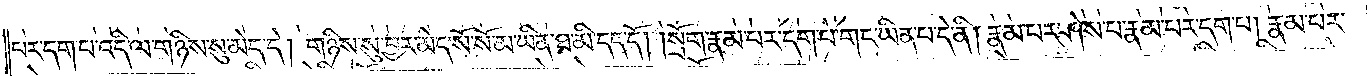པར་དག་པ་འདི་ལ་གཉིས་སུ་མེད་དེ། གཉིས་སུ་བྱར་མེད་སོ་སོ་མ་ཡིན་ཐ་མི་དད་དོ། །སྲོག་རྣམ་པར་དག་པ་གང་ཡིན་པ་དེ་ནི། རྣམ་པར་ཤེས་པ་རྣམ་པར་དག་པ། རྣམ་པར་
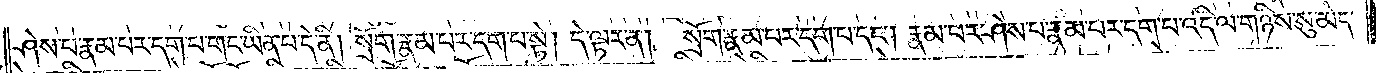ཤེས་པ་རྣམ་པར་དག་པ་གང་ཡིན་པ་དེ་ནི། སྲོག་རྣམ་པར་དག་པ་སྟེ། དེ་ལྟར་ན། སྲོག་རྣམ་པར་དག་པ་དང༌། རྣམ་པར་ཤེས་པ་རྣམ་པར་དག་པ་འདི་ལ་གཉིས་སུ་མེད་
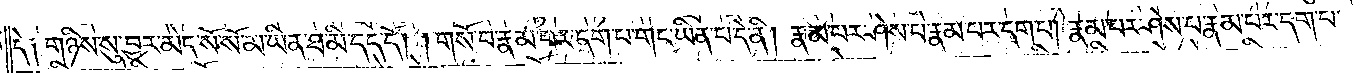དེ༑ གཉིས་སུ་བྱར་མེད་སོ་སོ་མ་ཡིན་ཐ་མི་དད་དོ། །གསོ་བ་རྣམ་པར་དག་པ་གང་ཡིན་པ་དེ་ནི། རྣམ་པར་ཤེས་པ་རྣམ་པར་དག་པ། རྣམ་པར་ཤེས་པ་རྣམ་པར་དག་པ་
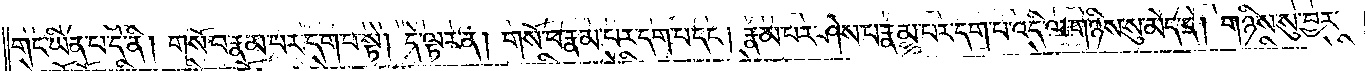གང་ཡིན་པ་དེ་ནི། གསོ་བ་རྣམ་པར་དག་པ་སྟེ། དེ་ལྟར་ན། གསོ་བ་རྣམ་པར་དག་པ་དང༌། རྣམ་པར་ཤེས་པ་རྣམ་པར་དག་པ་འདི་ལ་གཉིས་སུ་མེད་དེ། གཉིས་སུ་བྱར་
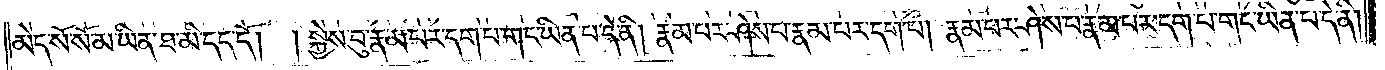མེད་སོ་སོ་མ་ཡིན་ཐ་མི་དད་དོ། །སྐྱེས་བུ་རྣམ་པར་དག་པ་གང་ཡིན་པ་དེ་ནི། རྣམ་པར་ཤེས་པ་རྣམ་པར་དག་པ། རྣམ་པར་ཤེས་པ་རྣམ་པར་དག་པ་གང་ཡིན་པ་དེ་ནི།
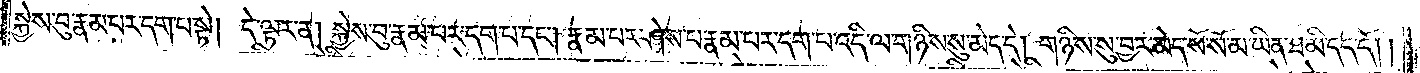སྐྱེས་བུ་རྣམ་པར་དག་པ་སྟེ། དེ་ལྟར་ན། སྐྱེས་བུ་རྣམ་པར་དག་པ་དང༌། རྣམ་པར་ཤེས་པ་རྣམ་པར་དག་པ་འདི་ལ་གཉིས་སུ་མེད་དེ། གཉིས་སུ་བྱར་མེད་སོ་སོ་མ་ཡིན་ཐ་མི་དད་དོ། །
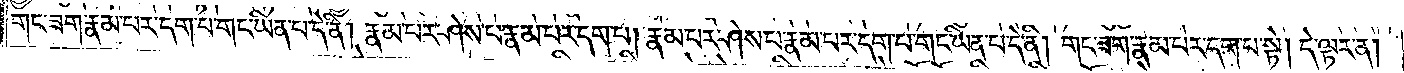གང་ཟག་རྣམ་པར་དག་པ་གང་ཡིན་པ་དེ་ནི། རྣམ་པར་ཤེས་པ་རྣམ་པར་དག་པ། རྣམ་པར་ཤེས་པ་རྣམ་པར་དག་པ་གང་ཡིན་པ་དེ་ནི། གང་ཟག་རྣམ་པར་དག་པ་སྟེ། དེ་ལྟར་ན།
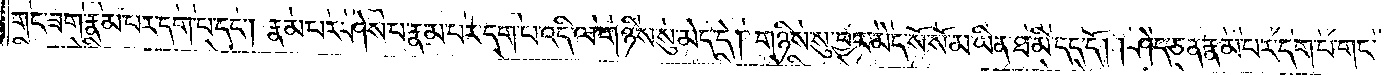གང་ཟག་རྣམ་པར་དག་པ་དང༌། རྣམ་པར་ཤེས་པ་རྣམ་པར་དག་པ་འདི་ལ་གཉིས་སུ་མེད་དེ། གཉིས་སུ་བྱར་མེད་སོ་སོ་མ་ཡིན་ཐ་མི་དད་དོ། །ཤེད་ཅན་རྣམ་པར་དག་པ་གང་
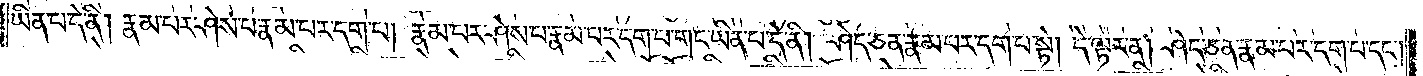ཡིན་པ་དེ་ནི། རྣམ་པར་ཤེས་པ་རྣམ་པར་དག་པ། རྣམ་པར་ཤེས་པ་རྣམ་པར་དག་པ་གང་ཡིན་པ་དེ་ནི། ཤེད་ཅན་རྣམ་པར་དག་པ་སྟེ། དེ་ལྟར་ན། ཤེད་ཅན་རྣམ་པར་དག་པ་དང༌།
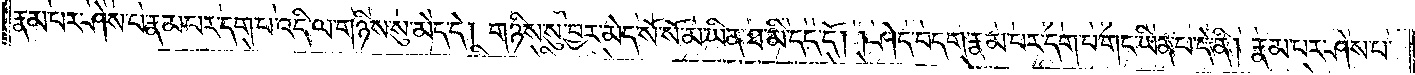རྣམ་པར་ཤེས་པ་རྣམ་པར་དག་པ་འདི་ལ་གཉིས་སུ་མེད་དེ། གཉིས་སུ་བྱར་མེད་སོ་སོ་མ་ཡིན་ཐ་མི་དད་དོ། །ཤེད་བདག་རྣམ་པར་དག་པ་གང་ཡིན་པ་དེ་ནི། རྣམ་པར་ཤེས་པ་
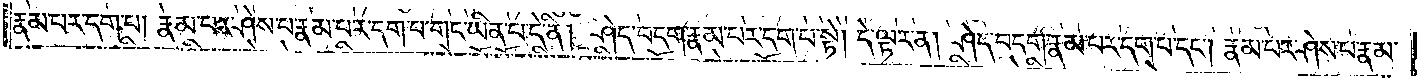རྣམ་པར་དག་པ། རྣམ་པར་ཤེས་པ་རྣམ་པར་དག་པ་གང་ཡིན་པ་དེ་ནི། ཤེད་བདག་རྣམ་པར་དག་པ་སྟེ། དེ་ལྟར་ན། ཤེད་བདག་རྣམ་པར་དག་པ་དང༌། རྣམ་པར་ཤེས་པ་རྣམ་
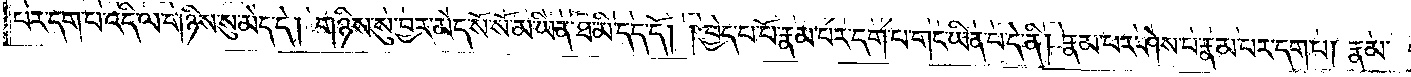པར་དག་པ་འདི་ལ་གཉིས་སུ་མེད་དེ། གཉིས་སུ་བྱར་མེད་སོ་སོ་མ་ཡིན་ཐ་མི་དད་དོ། །བྱེད་པ་པོ་རྣམ་པར་དག་པ་གང་ཡིན་པ་དེ་ནི། རྣམ་པར་ཤེས་པ་རྣམ་པར་དག་པ། རྣམ་
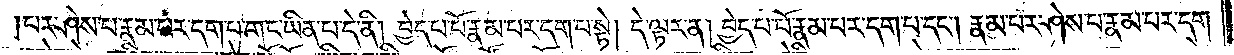པར་ཤེས་པ་རྣམ་པར་དག་པ་གང་ཡིན་པ་དེ་ནི། བྱེད་པ་པོ་རྣམ་པར་དག་པ་སྟེ། དེ་ལྟར་ན། བྱེད་པ་པོ་རྣམ་པར་དག་པ་དང༌། རྣམ་པར་ཤེས་པ་རྣམ་པར་དག་
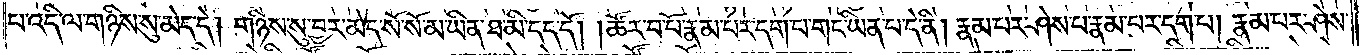པ་འདི་ལ་གཉིས་སུ་མེད་དེ། གཉིས་སུ་བྱར་མེད་སོ་སོ་མ་ཡིན་ཐ་མི་དད་དོ། །ཚོར་བ་པོ་རྣམ་པར་དག་པ་གང་ཡིན་པ་དེ་ནི། རྣམ་པར་ཤེས་པ་རྣམ་པར་དག་པ། རྣམ་པར་ཤེས་
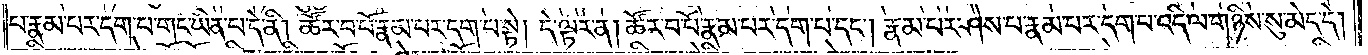པ་རྣམ་པར་དག་པ་གང་ཡིན་པ་དེ་ནི། ཚོར་བ་པོ་རྣམ་པར་དག་པ་སྟེ། དེ་ལྟར་ན། ཚོར་བ་པོ་རྣམ་པར་དག་པ་དང༌། རྣམ་པར་ཤེས་པ་རྣམ་པར་དག་པ་འདི་ལ་གཉིས་སུ་མེད་དེ།
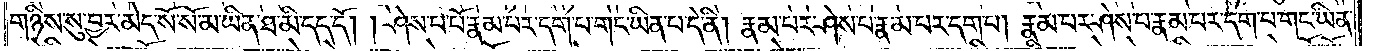གཉིས་སུ་བྱར་མེད་སོ་སོ་མ་ཡིན་ཐ་མི་དད་དོ། །ཤེས་པ་པོ་རྣམ་པར་དག་པ་གང་ཡིན་པ་དེ་ནི། རྣམ་པར་ཤེས་པ་རྣམ་པར་དག་པ། རྣམ་པར་ཤེས་པ་རྣམ་པར་དག་པ་གང་ཡིན་
